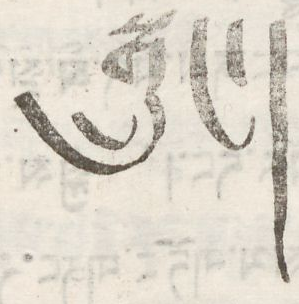སྒྲུང་།
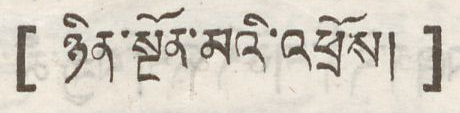[ ཉིན་སྔོན་མའི་འཕྲོས། ]
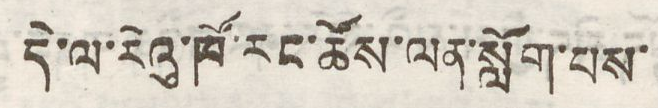དེ་ལ་རེའུ་ཁོ་རང་ཚོས་ལན་སློག་པས་
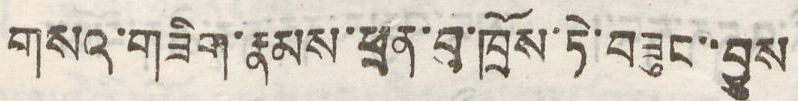གསའ་གཟིག་རྣམས་ཕྲན་བུ་ཁྲོས་ཏེ་བཟུང་་བྱུས
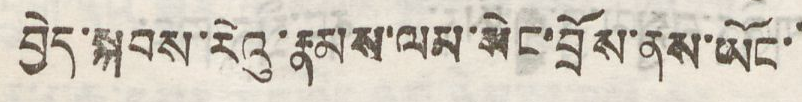བྱེད་སྐབས་རེའུ་རྣམས་ལམ་སེང་བྲོས་ནས་ཡོང་
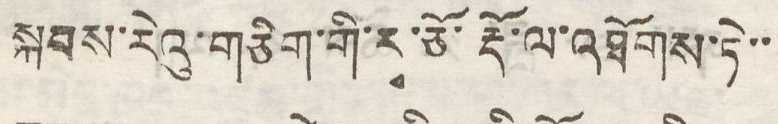སྐབས་རེའུ་གཅིག་གི་རྭ་ཅོ་རྡོ་ལ་འཐོགས་ཏེ་་
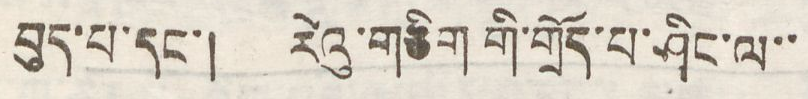བུད་པ་དང་། རེའུ་གཅིག གི་གྲོད་པ་ཤིང་ལ་་
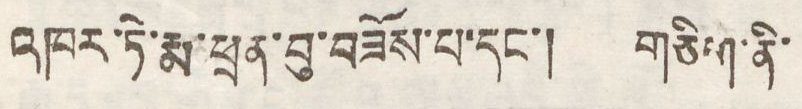འཁར་ཏེ་རྨ་ཕྲན་བུ་བཟོས་པ་དང་། གཅིག་ནི་
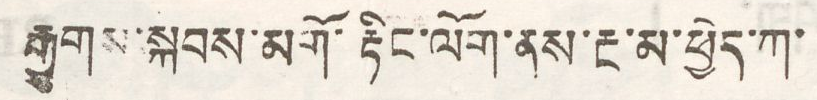རྒྱུགས་སྐབས་མགོ་རྟོང་ལོག་ནས་རྔ་མ་ཕྱེད་ཀ་
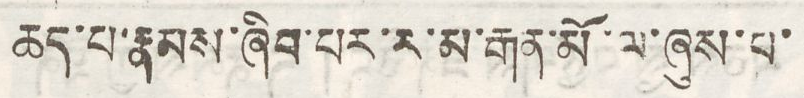ཆད་པ་རྣམས་ཞིབ་པར་ར་མ་རྒན་མོ་ལ་ཞུས་པ་
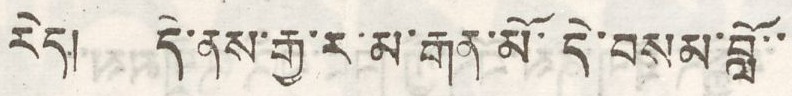རེད། དེ་ནས་རྒྱ་ར་མ་རྒན་མོ་དེ་བསམ་བློ་་
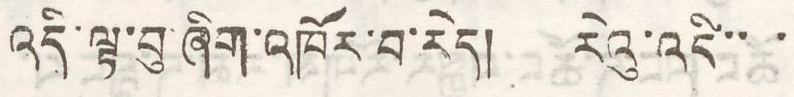འདི་ལྟ་བུ་ཞིག་འཁོར་བ་རེད། རེའུ་འདི་་་
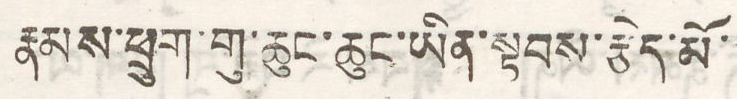རྣམས་ཕྲུག་གུ་ཆུང་ཆུང་ཡིན་སྟབས་རྩེད་མོ་
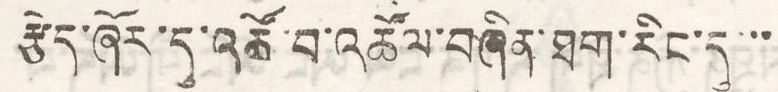རྩེད་ཞོར་དུ་འཚོ་བ་འཚོལ་བཞིན་ཐག་རིང་དུ་་་
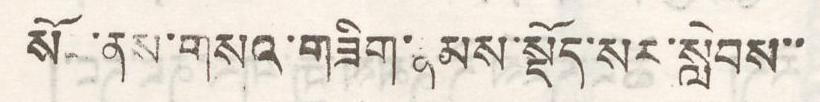སོང་ནས་གསའ་གཟིག་རྣམས་སྡོད་སར་སླེབས་་
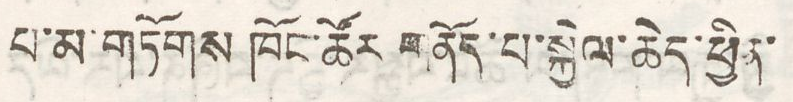པ་མ་གཏོགས ཁོང་ཚོར་གནོད་པ་སྐྱེལ་ཆེད་ཕྱིན་
